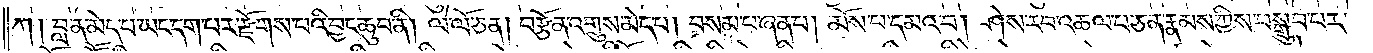ཀ། བླ་ན་མེད་པ་ཡང་དག་པར་རྫོགས་པའི་བྱང་ཆུབ་ནི། ལེ་ལོ་ཅན། བརྩོན་འགྲུས་མེད་པ། བསམ་པ་ཞན་པ། མོས་པ་དམའ་བ། ཤེས་རབ་འཆལ་པ་ཅན་རྣམས་ཀྱིས་བསྒྲུབ་པར་
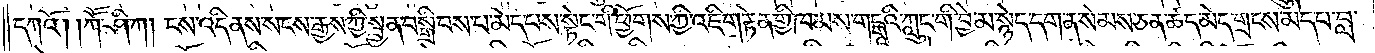དཀའོ། །ཀཽ་ཤི་ཀ། ངས་འདི་ནས་སངས་རྒྱས་ཀྱི་སྤྱན་བསྒྲིབས་པ་མེད་པས་སྟེང་གི་ཕྱོགས་ཀྱི་འཇིག་རྟེན་གྱི་ཁམས་གངྒཱའི་ཀླུང་གི་བྱེ་མ་སྙེད་དག་ན་སེམས་ཅན་ཚད་མེད་གྲངས་མེད་པ་བླ་
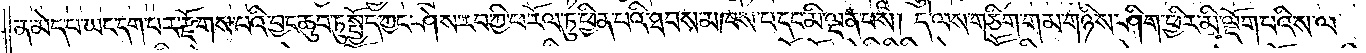ན་མེད་པ་ཡང་དག་པར་རྫོགས་པའི་བྱང་ཆུབ་ཏུ་སྤྱོད་ཀྱང་ཤེས་རབ་ཀྱི་ཕ་རོལ་ཏུ་ཕྱིན་པའི་ཐབས་མཁས་པ་དང་མི་ལྡན་པས། དེ་ལས་གཅིག་གམ་གཉིས་ཤིག་ཕྱིར་མི་ལྡོག་པའི་ས་ལ་
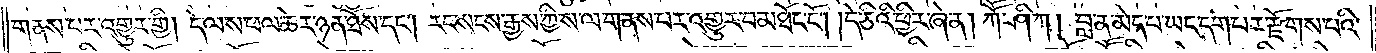གནས་པར་འགྱུར་གྱི། དེ་ལས་ཕལ་ཆེར་ཉན་ཐོས་དང༌། རང་སངས་རྒྱས་ཀྱི་ས་ལ་གནས་པར་འགྱུར་བ་མཐོང་ངོ༌། །དེ་ཅིའི་ཕྱིར་ཞེ་ན། ཀཽ་ཤི་ཀ། བླ་ན་མེད་པ་ཡང་དག་པར་རྫོགས་པའི་
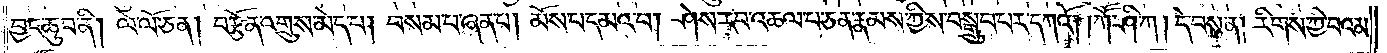བྱང་ཆུབ་ནི། ལེ་ལོ་ཅན། བརྩོན་འགྲུས་མེད་པ། བསམ་པ་ཞན་པ། མོས་པ་དམའ་བ། ཤེས་རབ་འཆལ་པ་ཅན་རྣམས་ཀྱིས་བསྒྲུབ་པར་དཀའོ། །ཀཽ་ཤི་ཀ ། དེ་བས་ན། རིགས་ཀྱི་བུའམ་
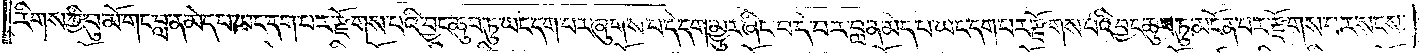རིགས་ཀྱི་བུ་མོ་གང་བླ་ན་མེད་པ་ཡང་དག་པར་རྫོགས་པའི་བྱང་ཆུབ་ཏུ་ཡང་དག་པར་ཞུགས་པ་དེ་དག་མྱུར་ཞིང་བདེ་བར་བླ་ན་མེད་པ་ཡང་དག་པར་རྫོགས་པའི་བྱང་ཆུབ་ཏུ་མངོན་པར་རྫོགས་པར་སངས་
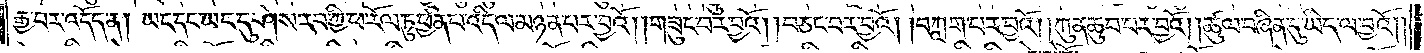རྒྱ་བར་འདོད་ན། ཡང་དང་ཡང་དུ་ཤེས་རབ་ཀྱི་ཕ་རོལ་ཏུ་ཕྱིན་པ་འདི་ལ་མཉན་པར་བྱའོ། །གཟུང་བར་བྱའོ། །བཅང་བར་བྱའོ། །བཀླག་པར་བྱའོ། །ཀུན་ཆུབ་པར་བྱའོ། །ཚུལ་བཞིན་དུ་ཡིད་ལ་བྱའོ། །
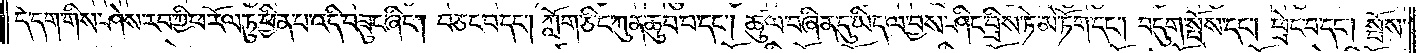དེ་དག་གིས་ཤེས་རབ་ཀྱི་ཕ་རོལ་ཏུ་ཕྱིན་པ་འདི་གཟུང་ཞིང༌། བཅང་བ་དང༌། ཀློག་ཅིང་ཀུན་ཆུབ་པ་དང༌། ཚུལ་བཞིན་དུ་ཡིད་ལ་བྱས་ཤིང་བྲིས་ཏེ་མེ་ཏོག་དང༌། བདུག་སྤོས་དང༌། ཕྲེང་བ་དང༌། སྤོས་
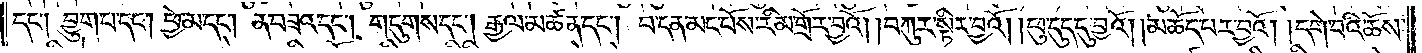དང༌། བྱུག་པ་དང༌། ཕྱེ་མ་དང༌། ན་བཟའ་དང༌། གདུགས་དང༌། རྒྱལ་མཚན་དང༌། བ་དན་མང་པོས་རིམ་གྲོར་བྱའོ། །བཀུར་སྟིར་བྱའོ། །ཕུ་དུད་དུ་བྱའོ། །མཆོད་པར་བྱའོ། །དགེ་བའི་ཆོས་
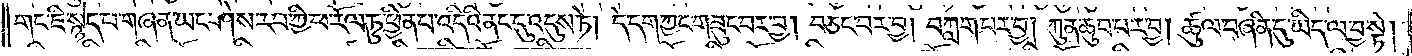གང་ཇི་སྙེད་པ་གཞན་ཡང་ཤེས་རབ་ཀྱི་ཕ་རོལ་ཏུ་ཕྱིན་པ་འདིའི་ནང་དུ་འདུས་ཏེ། དེ་དག་ཀྱང་གཟུང་བར་བྱ། བཅང་བར་བྱ། བཀླག་པར་བྱ། ཀུན་ཆུབ་བར་བྱ། ཚུལ་བཞིན་དུ་ཡིད་ལ་བྱ་སྟེ།
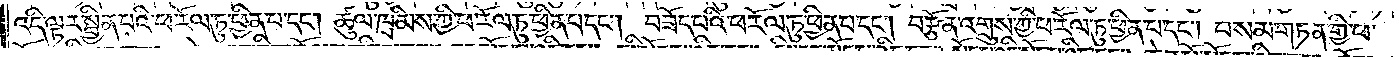འདི་ལྟར་སྦྱིན་པའི་ཕ་རོལ་ཏུ་ཕྱིན་པ་དང༌། ཚུལ་ཁྲིམས་ཀྱི་ཕ་རོལ་ཏུ་ཕྱིན་པ་དང༌། བཟོད་པའི་ཕ་རོལ་ཏུ་ཕྱིན་པ་དང༌། བརྩོན་འགྲུས་ཀྱི་ཕ་རོལ་ཏུ་ཕྱིན་པ་དང༌། བསམ་གཏན་གྱི་ཕ་
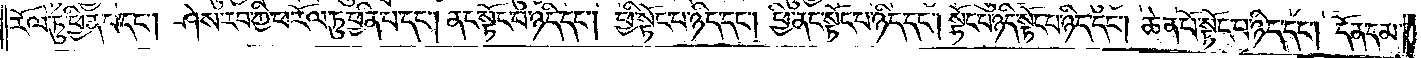རོལ་ཏུ་ཕྱིན་པ་དང༌། ཤེས་རབ་ཀྱི་ཕ་རོལ་ཏུ་ཕྱིན་པ་དང༌། ནང་སྟོང་པ་ཉིད་དང༌། ཕྱི་སྟོང་པ་ཉིད་དང༌། ཕྱི་ནང་སྟོང་པ་ཉིད་དང༌། སྟོང་པ་ཉིད་སྟོང་པ་ཉིད་དང༌། ཆེན་པོ་སྟོང་པ་ཉིད་དང༌། དོན་དམ་
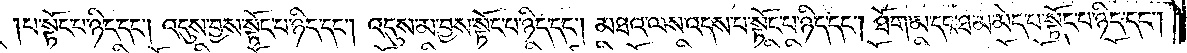པ་སྟོང་པ་ཉིད་དང༌། འདུས་བྱས་སྟོང་པ་ཉིད་དང༌། འདུས་མ་བྱས་སྟོང་པ་ཉིད་དང༌། མཐའ་ལས་འདས་པ་སྟོང་པ་ཉིད་དང༌། ཐོག་མ་དང་ཐ་མ་མེད་པ་སྟོང་པ་ཉིད་དང༌།
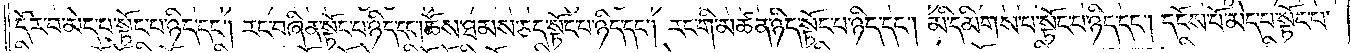དོར་བ་མེད་པ་སྟོང་པ་ཉིད་དང༌། རང་བཞིན་སྟོང་པ་ཉིད་དང༌། ཆོས་ཐམས་ཅད་སྟོང་པ་ཉིད་དང༌། རང་གི་མཚན་ཉིད་སྟོང་པ་ཉིད་དང༌། མི་དམིགས་པ་སྟོང་པ་ཉིད་དང༌། དངོས་པོ་མེད་པ་སྟོང་པ་
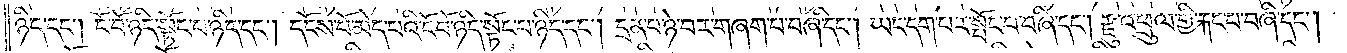ཉིད་དང༌། ངོ་བོ་ཉིད་སྟོང་པ་ཉིད་དང༌། དངོས་པོ་མེད་པའི་ངོ་བོ་ཉིད་སྟོང་པ་ཉིད་དང༌། དྲན་པ་ཉེ་བར་བཞག་པ་བཞི་དང༌། ཡང་དག་པར་སྤོང་བ་བཞི་དང༌། རྫུ་འཕྲུལ་གྱི་རྐང་པ་བཞི་དང༌།
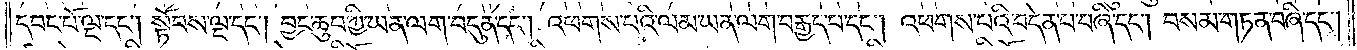དབང་པོ་ལྔ་དང༌། སྟོབས་ལྔ་དང༌། བྱང་ཆུབ་ཀྱི་ཡན་ལག་བདུན་དང༌། འཕགས་པའི་ལམ་ཡན་ལག་བརྒྱད་པ་དང༌། འཕགས་པའི་བདེན་པ་བཞི་དང༌། བསམ་གཏན་བཞི་དང༌།
